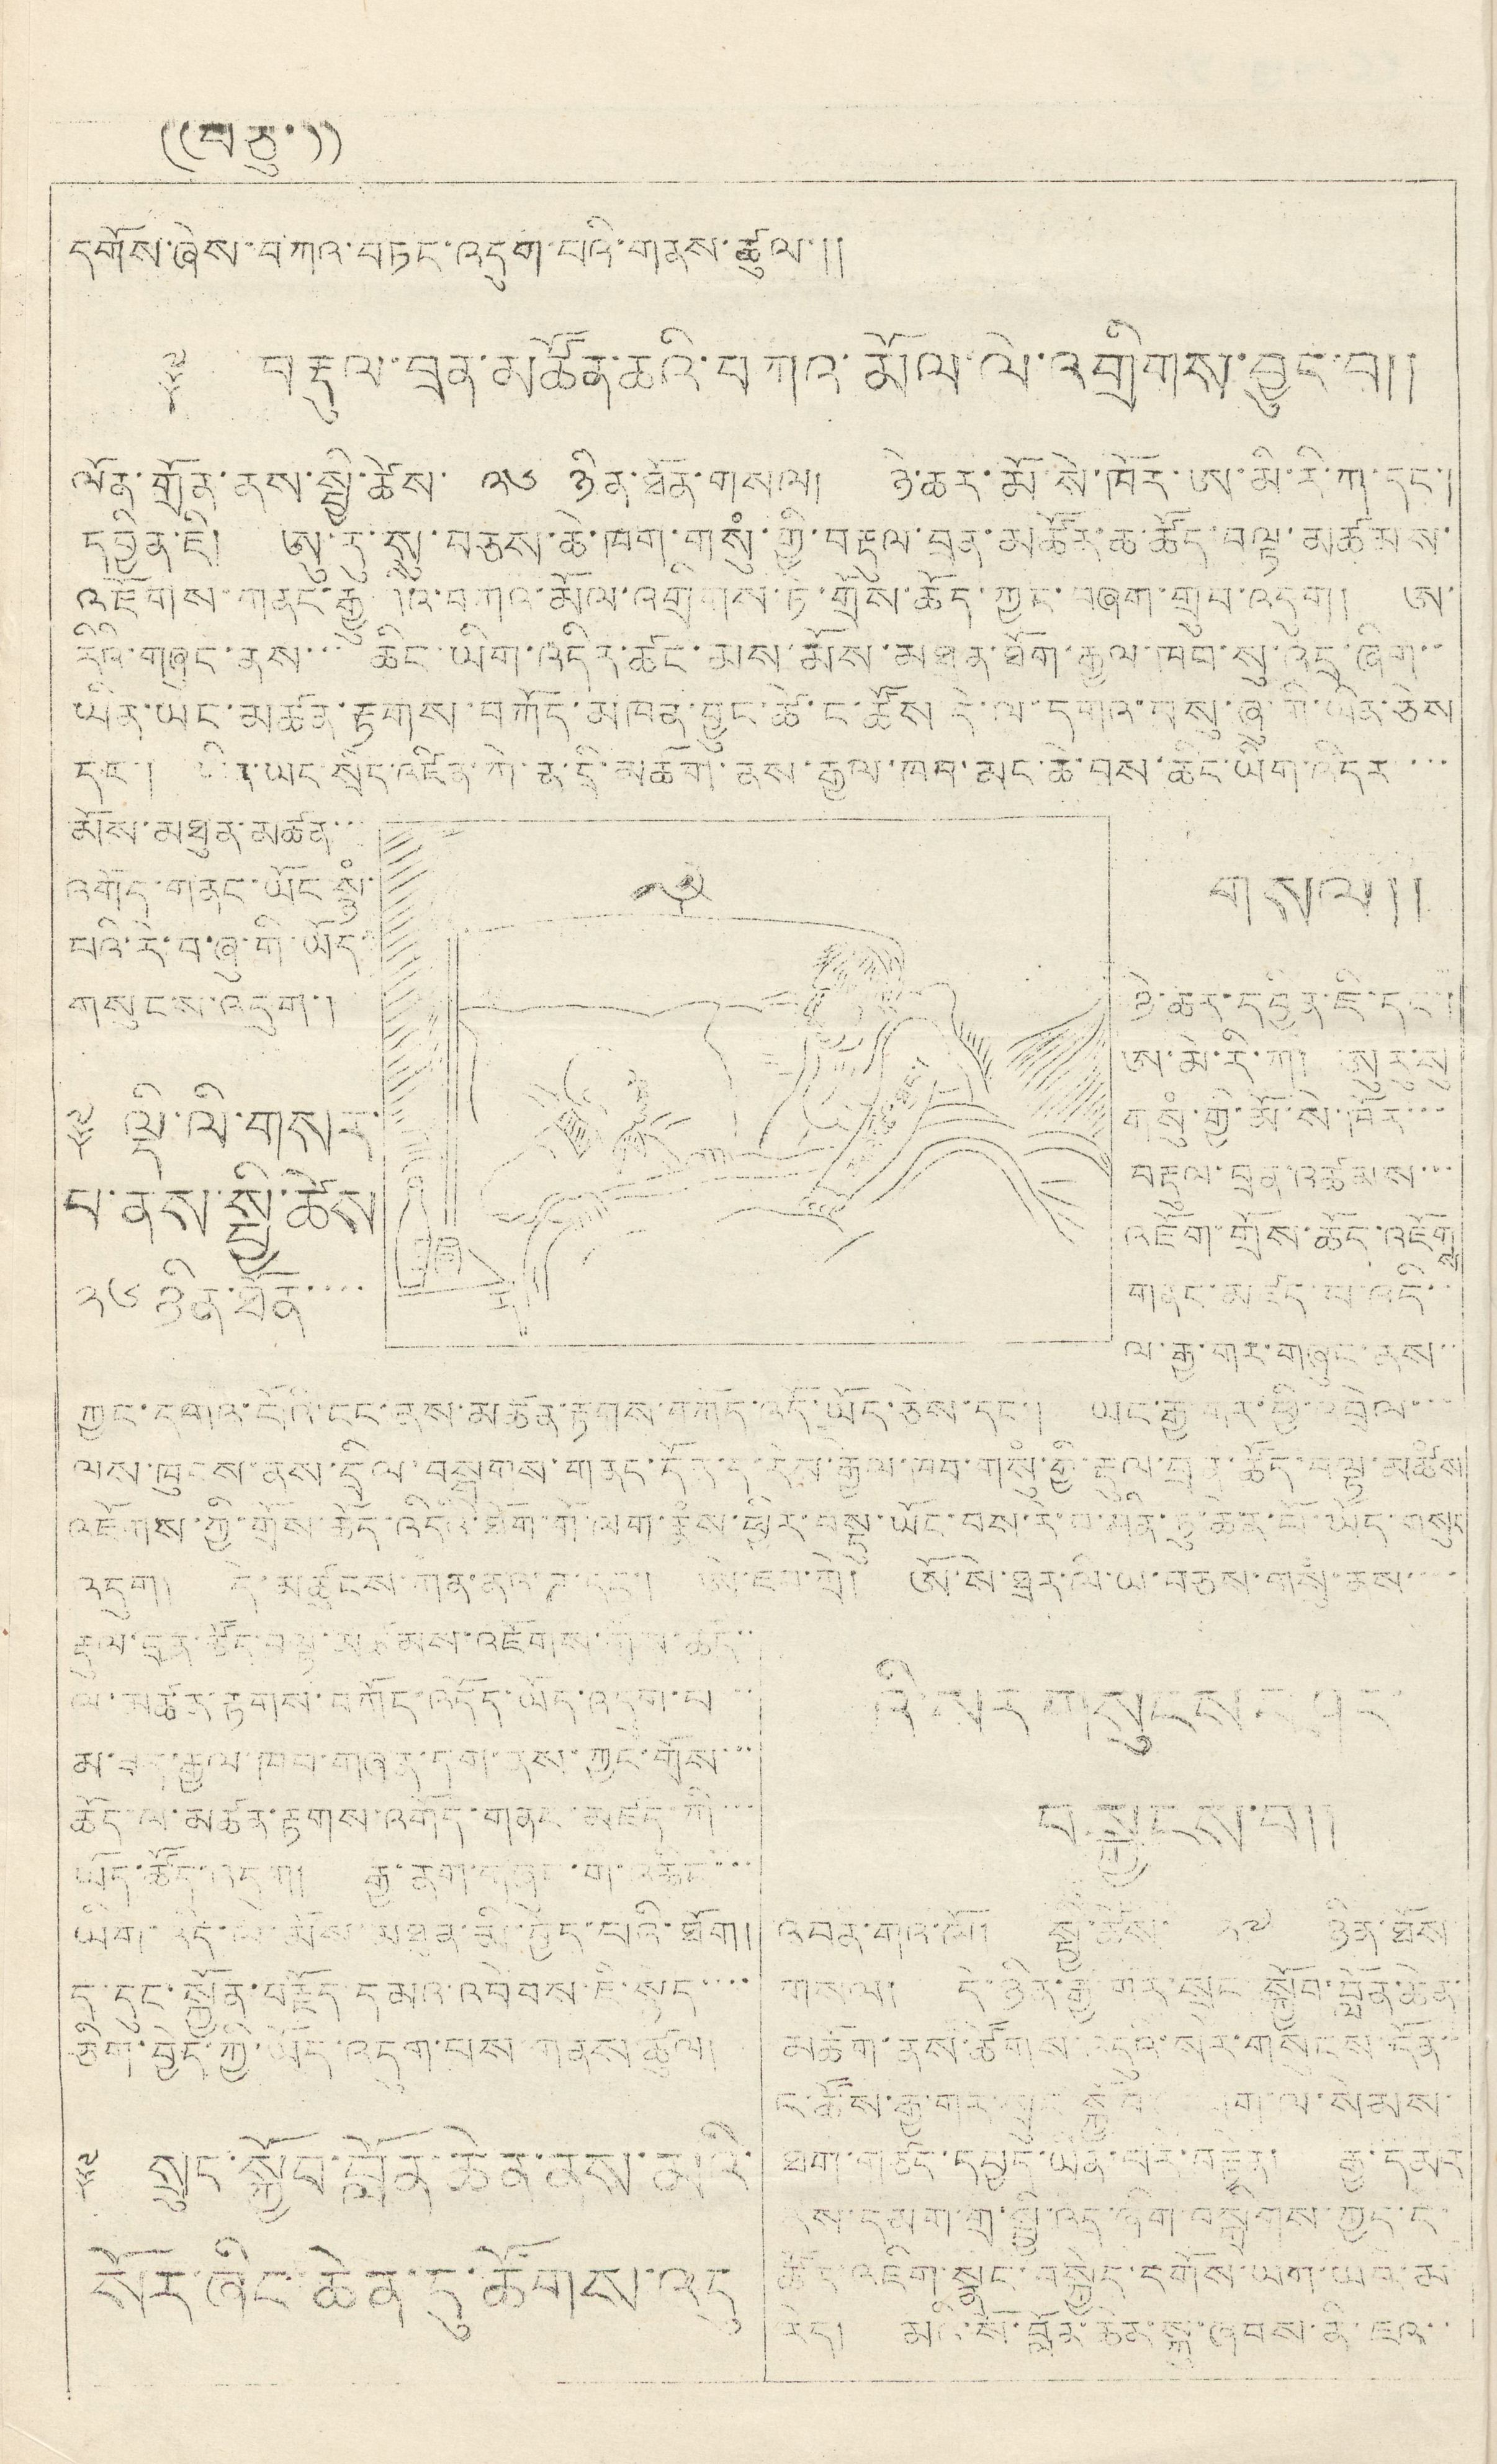(( བཅུ་ ))
དགོས་ཞེས་བཀའ་བཏང་འདུག་པའི་གནས་ཚུལ་།།
༈ བརྡུལ་བྲན་མཚོན་ཆའི་བཀའ་མོལ་ལེ་འགྲིགས་བྱུང་བ།།
ལོན་གྲོན་ནས་སྤྱི་ཚེས་ ༢༦ ཉིན་ཐོན་གསལ། ཉེ་ཆར་མོ་སེ་ཁོར་ཨ་མི་རི་ཀ་དང་།
དབྱིན་ཇི། ཨུ་རུ་སུ་བཅས་ཆེ་ཁག་གསུཾ་གྱི་བརྡུལ་བྲན་མཚོར་ཆ་ཚོད་བསྟ་མཚམས་
འཇོགས་གནང་རྒྱུ འི་བཀའ་མོལ་འགྲིགས་ཏེ་གྲོས་ཆོད་ཀྱང་བཞག་གྲུབ་འདུག། ཨ་
རིའི་གཞུང་ནས་་་ ཆིང་ཡིག་འདིར་ཚང་མས་མོས་མཐུན་ཐོག་རྒྱལ་ཁབ་སུ་འདྲ་ཞིག་་
ཡིན་ཡང་མཚན་རྟགས་བཀོད་མཁན་བྱུང་ཚེ་ང་ཚོས་དེ་ལ་དགའ་བསུ་ཞུ་གི་ཡིན་ཅེས
དང་། ཡིན་ཡང་སྲིད་འཛིན་ཀེ་རུ་དྲི་མཆོག་ནས་རྒྱལ་ཁབ་མང་ཆེ་བས་ཆིང་ཡིག་འདིར་་་་
མོས་མཐུན་མཚན་་་
འགོད་གནང་ཡོང་སྙཾ་
པའི་རི་བ་ཞུ་གི་ཡོད་་
གསུངས་འདུག་།
༈ ལྡི་ལི་གསར་
པ་ནས་སྤྱི་ཚེས
༢༦ ཉིན་ཐོན་་་་
གསལ།།
ཉེ་ཆར་དབྱིན་ཇི་དང་།
ཨ་མི་རི་ཀ། ཨུ་རུ་སུ
གསུཾ་གྱི་མོ་སེ་ཁོར་་་
བརྡུལ་བྲན་འཚམས་་་
འཇོག་གྲོས་ཆོད་འཇོགས
གནང་མཛད་པ་འདི་་
ལ་རྒྱ་གར་གཞུང་ནས་་
གྱང་དགའ་པོའི་ངང་ནས་མཚན་རྟགས་བཀོད་འདོ་ཡོད་ཅེས་དང་། ཡང་རྒྱ་གར་ཕྱི་འབྲེལ་་་
ལས་ཁུངས་ནས་དྲིལ་བསྒྲགས་གནང་དོན་ད་རེས་རྒྱལ་ཁབ་གསུཾ་གྱི་རྡུལ་བྲན་ཚོད་བལྟ་མཚཾས
འཇོགས་ཀྱི་གྲོས་ཆོད་འདིའི་ཐོག་གོ་ལག་རྣཾས་ཕྱིར་བསྡུ་ཡོང་བས་རེ་བ་ཤིན་ཏུ་ཆེན་པོ་ཡོད་གསུང
འདུག། དེ་མཚུངས་ཀན་ནའ་ཌ་དང་། ཨེ་ཇབ་ཀྲེ། ཨོ་སེ་ཐྲར་ལི་ཡ་བཅས་གསུཾ་ནས་་་་
དུས་དྲན་ཚོད་བལྟ་མཚམས་འཇོགས་གྲོས་ཚད་་
ལ་མཚན་རྟགས་བཀོད་འདོད་ཡོད་འདུག་པ་་་
མ་ཟད་རྒྱལ་ཁབ་གཞན་དག་ནས་ཀྱང་གྲོས་་་
ཆོད་ལ་མཚན་རྟགས་འགོད་གནང་མཛད་གི་་་
ཡོད་ཚོད་འདུག། རྒྱ་ནག་གཞུང་གི་འཆིང་་་
ཡིག་འདི་ལེ་མོས་མཐུན་མི་བྱེད་པའི་ཐོག།
ད་དུང་སྐྱོན་བརྗོད་དམན་འབེབས་ཇི་སྙེད་་་་
ཅིག་བྱེད་ཀྱི་ཡོད་འདུག་པས་གནས་ཚུལ།
༈ སྲུང་སྐྱོབ་བློན་ཆེན་ནས་མའི་
སོར་ཞིང་ཆེན་དུ་ཚོགས་འདུ
འི་སར གསུངས བཤད་
བསྐྱངས་བ།།
འབན་གའ་ལོ། སྤྱི་ཚེས་ ༢༦ ཉིན་ཐོས་
གསལ། དེ་ཉིན་རྒྱ་གར་སྲུང སྐྱོབ་བློན་ཆེན་
མཆོག་ནས་ཚོགས་འདུའི་སེར་གསུངས་དོན་་
ང་ཚོས་རྒྱ་གར་སྲུང་སྐྱོབ་  ཐོག་ལ་སེམས་
ཐག་གཙང་དཔྱད་ཡིན་པོར་བརྟེན། རྒྱ་དམར
ནས་དམག་གྲ་སྤྱི་འདྲ་ཞིག་བསྒྲིགས་ཀྱང་ད་
ཚོད་འཇིག་སྣང་བསྐྱེད་དགོས་ཡག་ཡའི་མ
རེད། མའི་སོ་བློན་ཆེན་སྐུ་ཞབས་ནི་ཇའ་་
